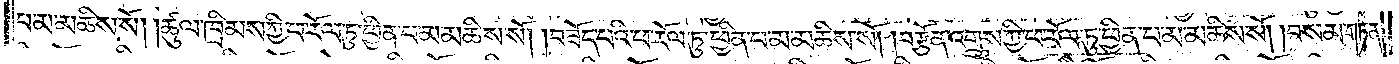པ་མ་མཆིས་སོ། །ཚུལ་ཁྲིམས་ཀྱི་ཕ་རོལ་ཏུ་ཕྱིན་པ་མ་མཆིས་སོ། །བཟོད་པའི་ཕ་རོལ་ཏུ་ཕྱིན་པ་མ་མཆིས་སོ། །བརྩོན་འགྲུས་ཀྱི་ཕ་རོལ་ཏུ་ཕྱིན་པ་མ་མཆིས་སོ། །བསམ་གཏན་
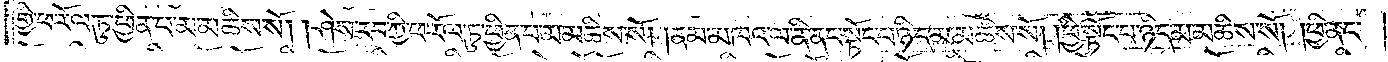གྱི་ཕ་རོལ་ཏུ་ཕྱིན་པ་མ་མཆིས་སོ། །ཤེས་རབ་ཀྱི་ཕ་རོལ་ཏུ་ཕྱིན་པ་མ་མཆིས་སོ། །ནམ་མཁའ་ལ་ནི་ནང་སྟོང་པ་ཉིད་མ་མཆིས་སོ། །ཕྱི་སྟོང་པ་ཉིད་མ་མཆིས་སོ། །ཕྱི་ནང་
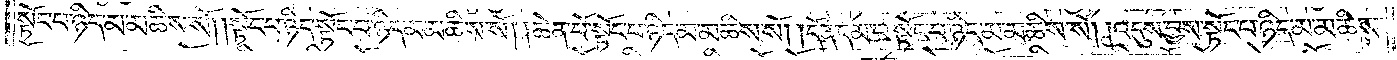སྟོང་པ་ཉིད་མ་མཆིས་སོ། །སྟོང་པ་ཉིད་སྟོང་པ་ཉིད་མ་མཆིས་སོ། །ཆེན་པོ་སྟོང་པ་ཉིད་མ་མཆིས་སོ། །དོན་དམ་པ་སྟོང་པ་ཉིད་མ་མཆིས་སོ། །འདུས་བྱས་སྟོང་པ་ཉིད་མ་མཆིས་
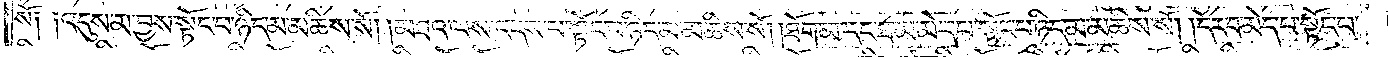སོ༑ ༑འདུས་མ་བྱས་སྟོང་པ་ཉིད་མ་མཆིས་སོ། །མཐའ་ལས་འདས་པ་སྟོང་པ་ཉིད་མ་མཆིས་སོ། །ཐོག་མ་དང་ཐ་མ་མེད་པ་སྟོང་པ་ཉིད་མ་མཆིས་སོ། །དོར་བ་མེད་པ་སྟོང་པ་
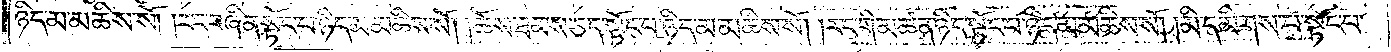ཉིད་མ་མཆིས་སོ། །རང་བཞིན་སྟོང་པ་ཉིད་མ་མཆིས་སོ། །ཆོས་ཐམས་ཅད་སྟོང་པ་ཉིད་མ་མཆིས་སོ། །རང་གི་མཚན་ཉིད་སྟོང་པ་ཉིད་མ་མཆིས་སོ། །མི་དམིགས་པ་སྟོང་པ་
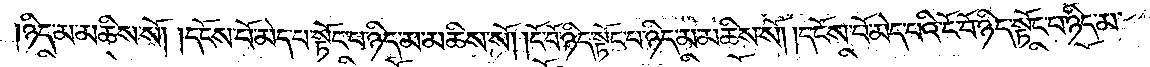ཉིད་མ་མཆིས་སོ། །དངོས་པོ་མེད་པ་སྟོང་པ་ཉིད་མ་མཆིས་སོ། །ངོ་བོ་ཉིད་སྟོང་པ་ཉིད་མ་མཆིས་སོ། །དངོས་པོ་མེད་པའི་ངོ་བོ་ཉིད་སྟོང་པ་ཉིད་མ་
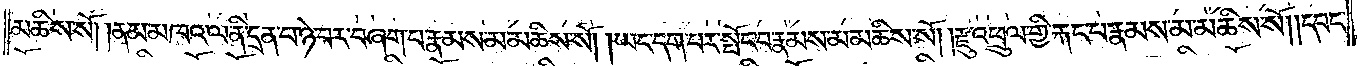མཆིས་སོ། །ནམ་མཁའ་ལ་ནི་དྲན་པ་ཉེ་བར་བཞག་པ་རྣམས་མ་མཆིས་སོ། །ཡང་དག་པར་སྤོང་བ་རྣམས་མ་མཆིས་སོ། །རྫུ་འཕྲུལ་གྱི་རྐང་པ་རྣམས་མ་མཆིས་སོ། །དབང་
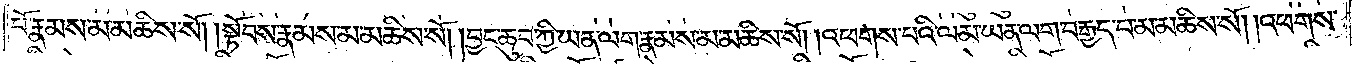པོ་རྣམས་མ་མཆིས་སོ། །སྟོབས་རྣམས་མ་མཆིས་སོ། །བྱང་ཆུབ་ཀྱི་ཡན་ལག་རྣམས་མ་མཆིས་སོ། །འཕགས་པའི་ལམ་ཡན་ལག་བརྒྱད་པ་མ་མཆིས་སོ། །འཕགས་
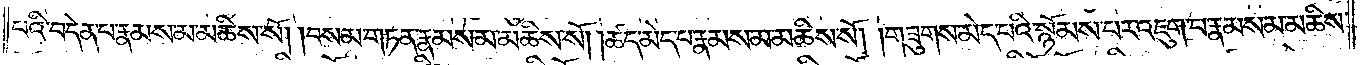པའི་བདེན་པ་རྣམས་མ་མཆིས་སོ། །བསམ་གཏན་རྣམས་མ་མཆིས་སོ། །ཚད་མེད་པ་རྣམས་མ་མཆིས་སོ། །གཟུགས་མེད་པའི་སྙོམས་པར་འཇུག་པ་རྣམས་མ་མཆིས་
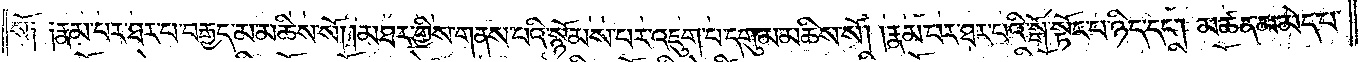སོ༑ ༑རྣམ་པར་ཐར་པ་བརྒྱད་མ་མཆིས་སོ། །མཐར་གྱིས་གནས་པའི་སྙོམས་པར་འཇུག་པ་དགུ་མ་མཆིས་སོ། །རྣམ་པར་ཐར་པའི་སྒོ་སྟོང་པ་ཉིད་དང༌། མཚན་མ་མེད་པ་
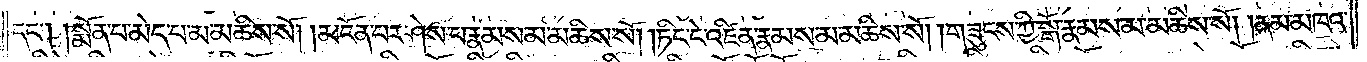དང༌། །སྨོན་པ་མེད་པ་མ་མཆིས་སོ། །མངོན་པར་ཤེས་པ་རྣམས་མ་མཆིས་སོ། །ཏིང་ངེ་འཛིན་རྣམས་མ་མཆིས་སོ། །གཟུངས་ཀྱི་སྒོ་རྣམས་མ་མཆིས་སོ། །ནམ་མཁའ་
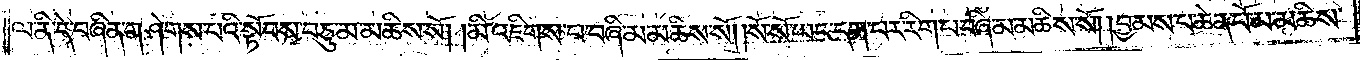ལ་ནི་དེ་བཞིན་གཤེགས་པའི་སྟོབས་བཅུ་མ་མཆིས་སོ། །མི་འཇིགས་པ་བཞི་མ་མཆིས་སོ། །སོ་སོ་ཡང་དག་པར་རིག་པ་བཞི་མ་མཆིས་སོ། །བྱམས་པ་ཆེན་པོ་མ་མཆིས་
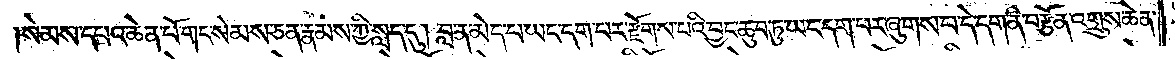སེམས་དཔའ་ཆེན་པོ་གང་སེམས་ཅན་རྣམས་ཀྱི་སླད་དུ། བླ་ན་མེད་པ་ཡང་དག་པར་རྫོགས་པའི་བྱང་ཆུབ་ཏུ་ཡང་དག་པར་ཞུགས་པ་དེ་དག་ནི་བརྩོན་འགྲུས་ཆེན་
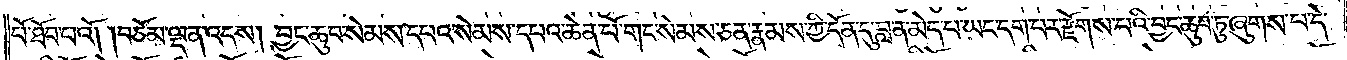པོ་ཐོབ་པའོ། །བཅོམ་ལྡན་འདས། བྱང་ཆུབ་སེམས་དཔའ་སེམས་དཔའ་ཆེན་པོ་གང་སེམས་ཅན་རྣམས་ཀྱི་དོན་དུ་བླ་ན་མེད་པ་ཡང་དག་པར་རྫོགས་པའི་བྱང་ཆུབ་ཏུ་ཞུགས་པ་དེ་
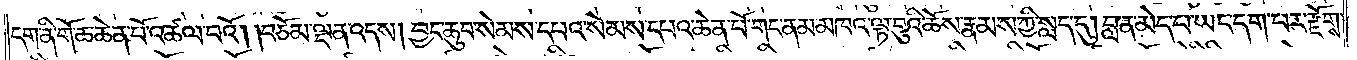དག་ནི་གོ་ཆ་ཆེན་པོ་འཚལ་བའོ། །བཅོམ་ལྡན་འདས། བྱང་ཆུབ་སེམས་དཔའ་སེམས་དཔའ་ཆེན་པོ་གང་ནམ་མཁའ་ལྟ་བུའི་ཆོས་རྣམས་ཀྱི་སླད་དུ། བླ་ན་མེད་པ་ཡང་དག་པར་རྫོགས་
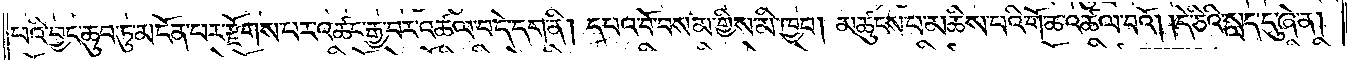པའི་བྱང་ཆུབ་ཏུ་མངོན་པར་རྫོགས་པར་འཚང་རྒྱ་བར་འཚལ་བ་དེ་དག་ནི། དཔའ་བོ་བསམ་གྱིས་མི་ཁྱབ། མཚུངས་པ་མ་མཆིས་པའི་གོ་ཆ་འཚལ་བའོ། །དེ་ཅིའི་སླད་དུ་ཞེ་ན།
